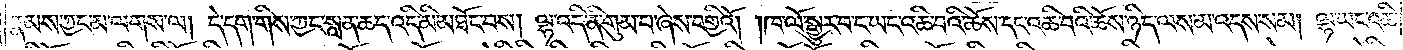རྣམས་ཀྱང་མ་ལགས་ལ། དེ་དག་གིས་ཀྱང་སླན་ཆད་འདི་མི་མཐོང་བས། ལྷ་འདི་ནི་གུམ་པ་ཞེས་བགྱིའོ། །ཁ་ལོ་སྒྱུར་བ་ང་ཡང་འཆི་བའི་ཆོས་དང་འཆི་བའི་ཆོས་ཉིད་ལས་མ་འདས་སམ། ལྷ་ཡང་འཆི་
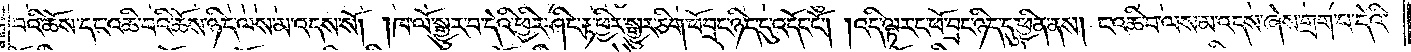བའི་ཆོས་དང་འཆི་བའི་ཆོས་ཉིད་ལས་མ་འདས་སོ། །ཁ་ལོ་སྒྱུར་བ་དེའི་ཕྱིར་ཤིང་རྟ་ཕྱིར་སྒྱུར་ཅིག་ཕོ་བྲང་ཉིད་དུ་འདོང་ངོ༌། །འདི་ལྟར་ང་ཕོ་བྲང་ཉིད་དུ་ཕྱིན་ནས། ང་འཆི་བ་ལས་མ་འདས་ཞེས་གྲག་པ་དེའི་
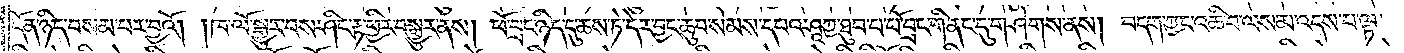དོན་ཉིད་བསམ་པར་བྱའོ། །ཁ་ལོ་སྒྱུར་བས་ཤིང་རྟ་ཕྱིར་བསྒྱུར་ནས། ཕོ་བྲང་ཉིད་དུ་ཆས་ཏེ་དེར་བྱང་ཆུབ་སེམས་དཔའ་ཤཱཀྱ་ཐུབ་པ་ཕོ་བྲང་གི་ནང་དུ་གཤེགས་ནས། བདག་ཀྱང་འཆི་བ་ལས་མ་འདས་པ་ལྟ་
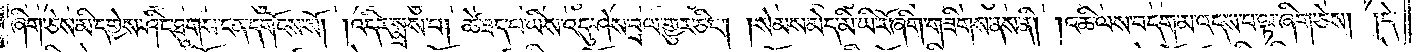ཞིག་ཅེས་མི་དགྱེས་ཤིང་ཐུགས་ངན་དགོངས་སོ། །འདིར་སྨྲས་པ། ཚེ་ཟད་པ་ཡིས་འདུ་ཤེས་བྲལ་གྱུར་ཅིང༌། །སེམས་མེད་མི་ཡི་རོ་ཞིག་གཟིགས་ནས་ནི། །འཆི་ལས་བདག་མ་འདས་པ་ལྟ་ཞིག་ཅེས། །དེ་
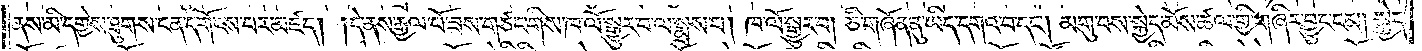ནས་མི་དགྱེས་ཐུགས་ངན་དགོངས་པར་མཛད། །དེ་ནས་རྒྱལ་པོ་ཟས་གཙང་གིས་ཁ་ལོ་སྒྱུར་བ་ལ་སྨྲས་པ། ཁ་ལོ་སྒྱུར་བ། ཅི་གཞོན་ནུ་ཡིད་དགའ་བ་དང༌། མགུ་བས་སྐྱེད་མོས་ཚལ་གྱི་གཞིར་བྱུང་ངམ། སྐྱེད་
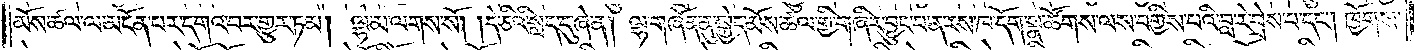མོས་ཚལ་ལ་མངོན་པར་དགའ་བར་གྱུར་ཏམ། ལྷ་མ་ལགས་སོ། །དེ་ཅིའི་སླད་དུ་ཞེ་ན། ལྷ་གཞོན་ནུ་སྐྱེད་མོས་ཚལ་གྱི་གཞིར་བྱུང་བ་ན་རས་ཁ་དོག་སྣ་ཚོགས་ལས་བགྱིད་པའི་བླ་རེ་བྲེས་པ་དང༌། ཁྱོགས་
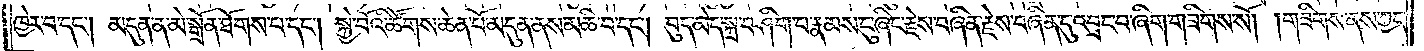ཁྱེར་བ་དང༌། མདུན་ན་མེ་སྒྲོན་ཐོགས་པ་དང༌། སྐྱེ་བོའི་ཚོགས་ཆེན་པོ་མདུན་ནས་མཆི་བ་དང༌། བུད་མེད་སྐྲ་བཤིག་པ་རྣམས་ངུ་ཞིང་རྗེས་བཞིན་རྗེས་བཞིན་དུ་འབྲང་བ་ཞིག་གཟིགས་སོ། །གཟིགས་ནས་ཀྱང་
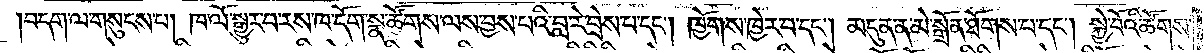།བདག་ལ་གསུངས་པ། ཁ་ལོ་སྒྱུར་བ་རས་ཁ་དོག་སྣ་ཚོགས་ལས་བྱས་པའི་བླ་རེ་བྲེས་པ་དང༌། ཁྱོགས་ཁྱེར་བ་དང༌། མདུན་ན་མེ་སྒྲོན་ཐོགས་པ་དང༌། སྐྱེ་བོའི་ཚོགས་
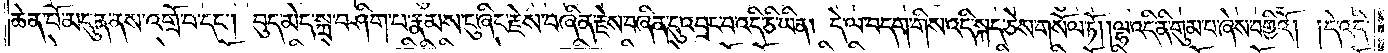ཆེན་པོ་མདུན་ནས་འགྲོ་བ་དང༌། བུད་མེད་སྐྲ་བཤིག་པ་རྣམས་ངུ་ཞིང་རྗེས་བཞིན་རྗེས་བཞིན་དུ་འབྲང་བ་འདི་ཅི་ཡིན། དེ་ལ་བདག་གིས་འདི་སྐད་ཅེས་གསོལ་ཏོ། །ལྷ་འདི་ནི་གུམ་པ་ཞེས་བགྱིའོ། །དེ་འདི་
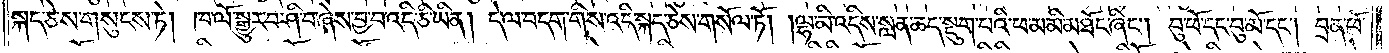སྐད་ཅེས་གསུངས་ཏེ། ཁ་ལོ་སྒྱུར་བ་ཤི་བ་ཞེས་བྱ་བ་འདི་ཅི་ཡིན། དེ་ལ་བདག་གིས་འདི་སྐད་ཅེས་གསོལ་ཏོ། །ལྷ་མི་འདིས་སླན་ཆད་སྡུག་པའི་ཕ་མ་མི་མཐོང་ཞིང༌། བུ་ཕོ་དང་བུ་མོ་དང༌། བྲན་ཕོ་
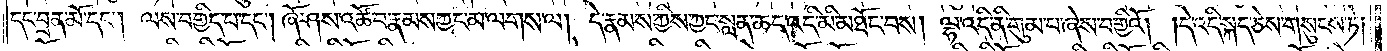དང་བྲན་མོ་དང༌། ལས་བགྱིད་པ་དང༌། ཞོ་ཤས་འཚོ་བ་རྣམས་ཀྱང་མ་ལགས་ལ། དེ་རྣམས་ཀྱིས་ཀྱང་སླན་ཆད་འདི་མི་མཐོང་བས། ལྷ་འདི་ནི་གུམ་པ་ཞེས་བགྱིའོ། །དེ་འདི་སྐད་ཅེས་གསུངས་ཏེ།
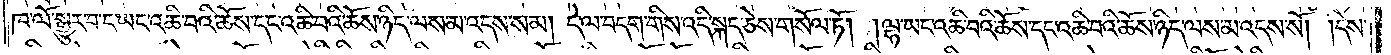ཁ་ལོ་སྒྱུར་བ་ང་ཡང་འཆི་བའི་ཆོས་དང་འཆི་བའི་ཆོས་ཉིད་ལས་མ་འདས་སམ། དེ་ལ་བདག་གིས་འདི་སྐད་ཅེས་གསོལ་ཏོ། །ལྷ་ཡང་འཆི་བའི་ཆོས་དང་འཆི་བའི་ཆོས་ཉིད་ལས་མ་འདས་སོ། །དེས་
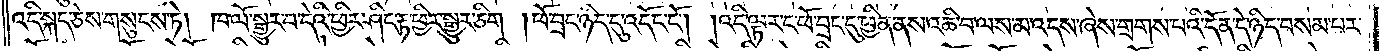འདི་སྐད་ཅེས་གསུངས་ཏེ། ཁ་ལོ་སྒྱུར་བ་དེའི་ཕྱིར་ཤིང་རྟ་ཕྱིར་སྒྱུར་ཅིག །ཕོ་བྲང་ཉིད་དུ་འདོད་ངོ༌། །འདི་ལྟར་ང་ཕོ་བྲང་དུ་ཕྱིན་ནས་འཆི་བ་ལས་མ་འདས་ཞེས་གྲགས་པའི་དོན་དེ་ཉིད་བསམ་པར་
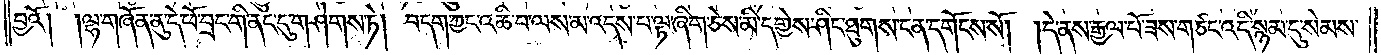བྱའོ། །ལྷ་གཞོན་ནུ་དེ་ཕོ་བྲང་གི་ནང་དུ་གཤེགས་ཏེ། བདག་ཀྱང་འཆི་བ་ལས་མ་འདས་པ་ལྟ་ཞིག་ཅེས་མི་དགྱེས་ཤིང་ཐུགས་ངན་དགོངས་སོ། །དེ་ནས་རྒྱལ་པོ་ཟས་གཙང་འདི་སྙམ་དུ་སེམས་
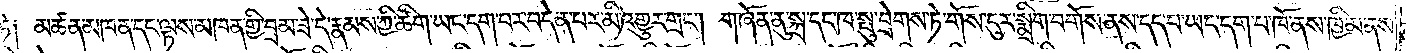ཏེ༑ མཚན་མཁན་དང་ལྟས་མཁན་གྱི་བྲམ་ཟེ་དེ་རྣམས་ཀྱི་ཚིག་ཡང་དག་པར་བདེན་པར་མི་འགྱུར་གྲང༌། གཞོན་ནུ་སྐྲ་དང་ཁ་སྤུ་བྲེགས་ཏེ་གོས་ངུར་སྨྲིག་བགོས་ནས་དད་པ་ཡང་དག་པ་ཁོ་ནས་ཁྱིམ་ནས་
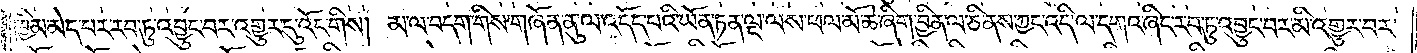ཁྱིམ་མེད་པར་རབ་ཏུ་འབྱུང་བར་འགྱུར་དུ་འོང་གིས། མ་ལ་བདག་གིས་གཞོན་ནུ་ལ་འདོད་པའི་ཡོན་ཏན་ལྔ་ལས་ཕལ་མོ་ཆེ་ཞིག་བྱིན་ལ་ཅི་ནས་ཀྱང་འདི་ལ་དགའ་ཞིང་རབ་ཏུ་འབྱུང་བར་མི་འགྱུར་བར་
